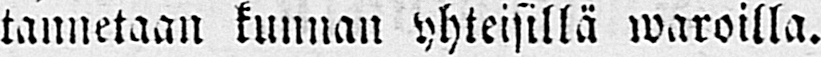tannetaan kunnan yhteisillä waroilla.
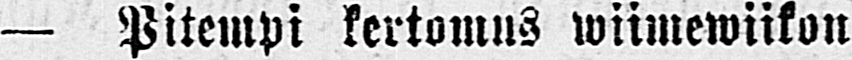— Pitempi kertomus wiimewiikon
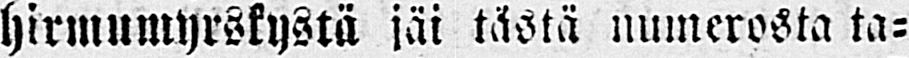hirmumyrskystä jäi tästä numerosta ta-
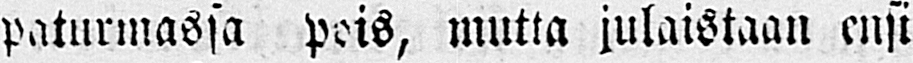paturmassa pois, mutta julaistaan ensi
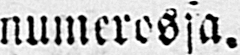numerossa.
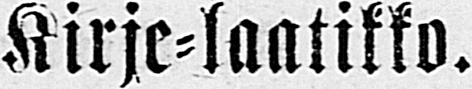Kirje-laatikko.
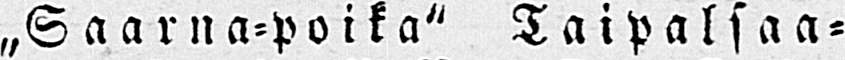„Sa arna-poika" Taipalsaa-
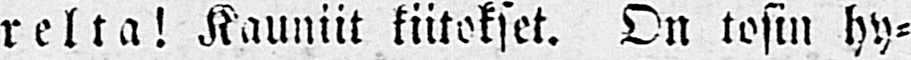relta! Kauniit kiitokset. On tosin hy-
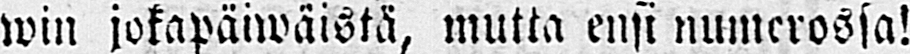win jokapäiwäistä, mutta ensi numerossa!
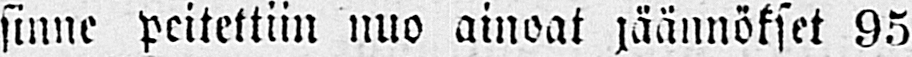sinne peitettiin nuo ainoat jäännökset 95
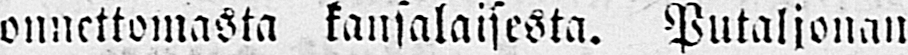onnettomasta kansalaisesta. Putaljonan
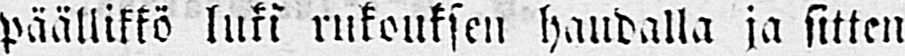päällikkö luki rukouksen handalla ja sitten
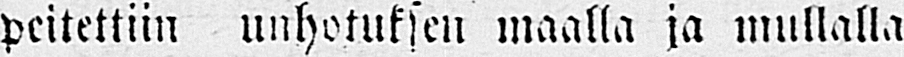peitettiin unhotuksen maalla ja mullalla
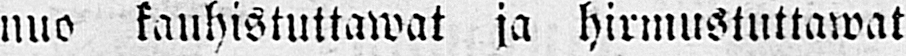nuo kauhistuttawat ja hirmustuttawat
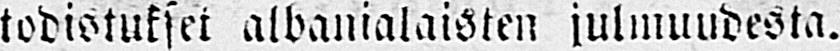todistukset albanialaisten julmuudesta.
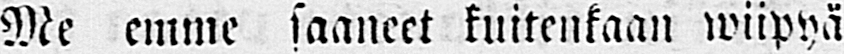Me emme saaneet kuitenkaan wiipyä
